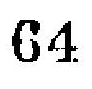64
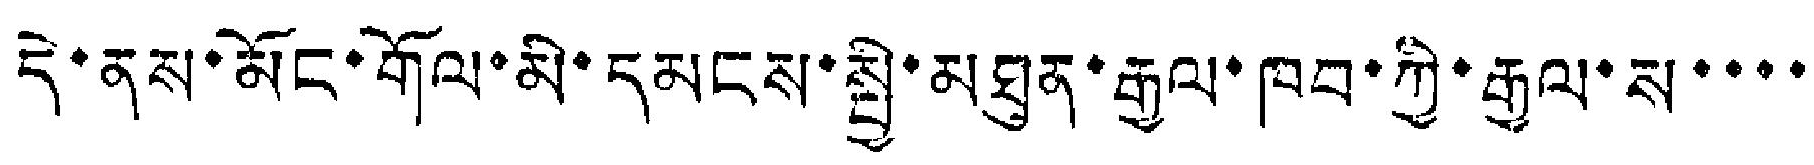དེ་ནས་མོང་གོལ་མི་དམངས་སྤྱི་མཐུན་རྒྱལ་ཁབ་ཀྱི་རྒྱལ་ས་་་་
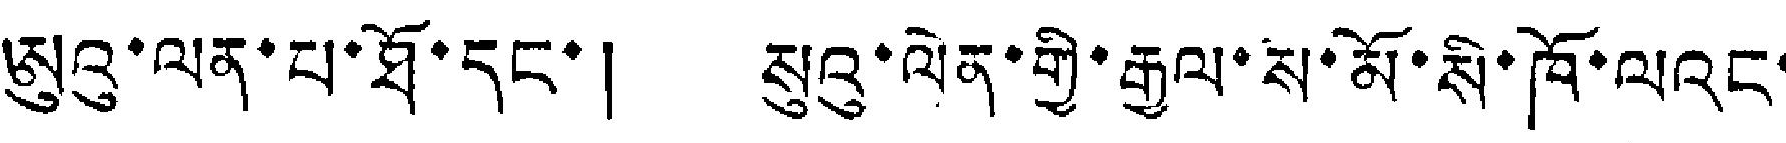ཨུའུ་ལན་པ་ཐོ་དང་། སུའུ་ལེན་གྱི་རྒྱལ་ས་མོ་སི་ཁོ་ལའང་
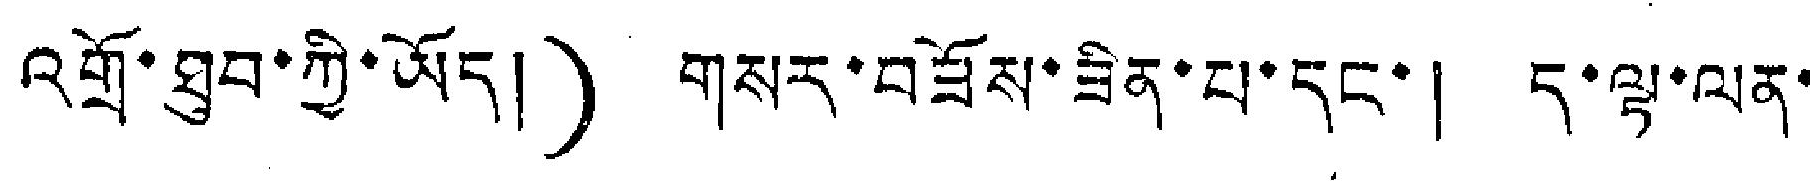འགྲོ་ཐུབ་ཀྱི་ཡོད།) གསར་བཟོས་ཟིན་པ་དང་། ད་ལྟ་ལན་
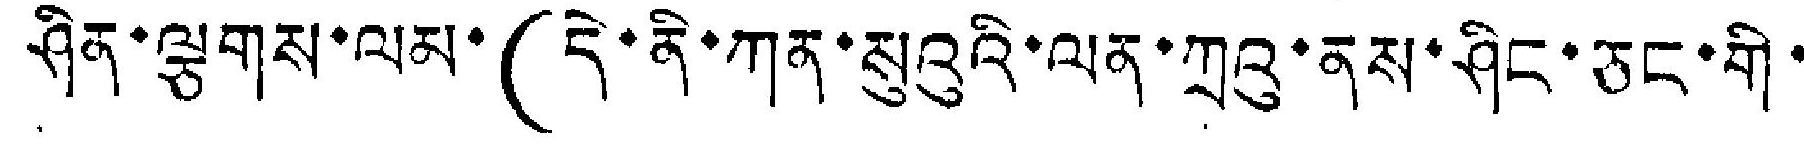ཤིན་ལྕགས་ལམ་(དེ་ནི་ཀན་སུའུའི་ལན་ཀྲའུ་ནས་ཤིང་ཅང་གི་
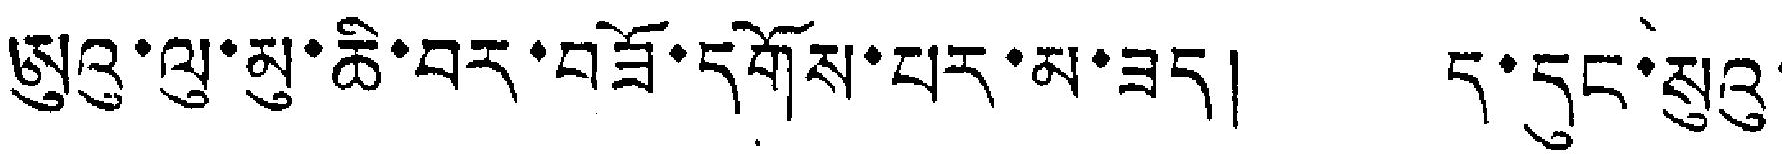ཨུའུ་ལུ་མུ་ཆི་བར་བཟོ་དགོས་པར་མ་ཟད། ད་དུང་སུའུ་
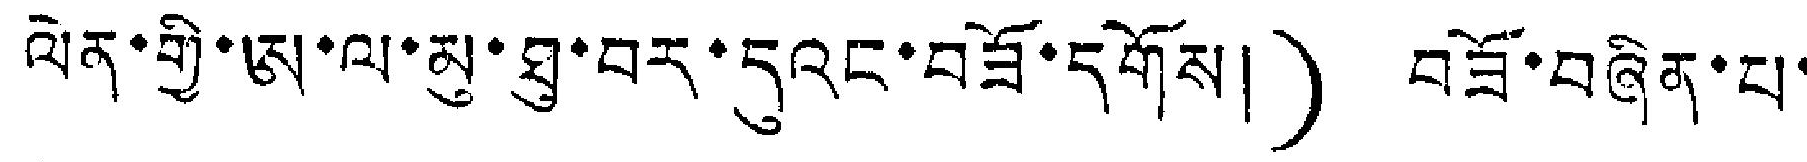ལེན་གྱི་ཨ་ལ་མུ་ཐུ་བར་དུའང་བཟོ་དགོས།) བཟོ་བཞིན་པ་
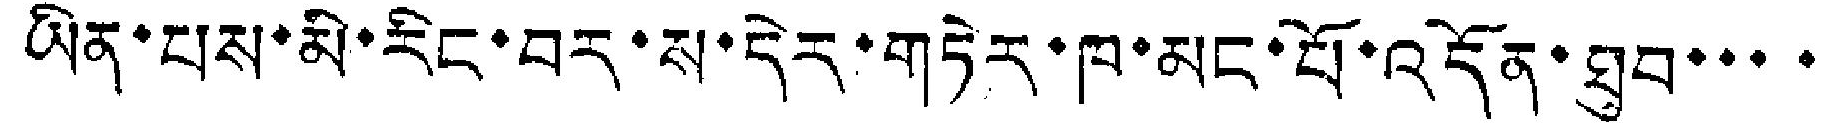ཡིན་པས་མི་རིང་བར་ས་དེར་གཏེར་ཁ་མང་པོ་འདོན་ཐུབ་་་་་
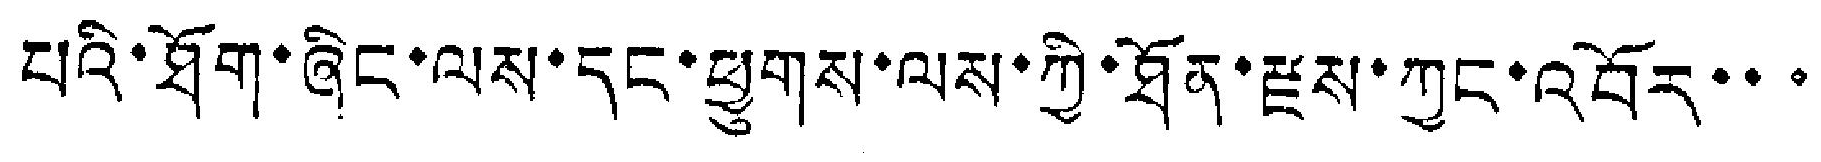པའི་ཐོག་ཞིང་ལས་དང་ཕྱུགས་ལས་ཀྱི་ཐོན་རྫས་ཀྱང་འབོར་་་་
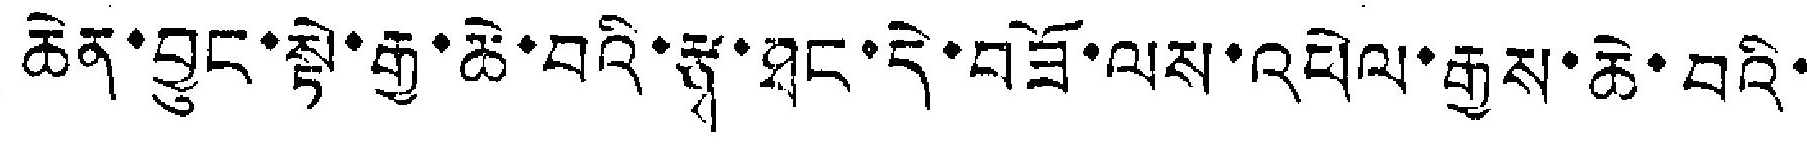ཆེན་བྱུང་སྟེ་རྒྱ་ཆེ་བའི་རྩྭ་ཐང་དེ་བཟོ་ལས་འཕེལ་རྒྱས་ཆེ་བའི་
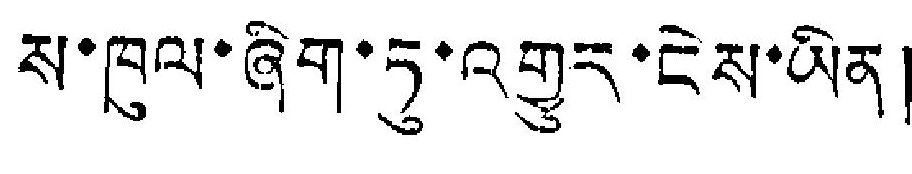ས་ཁུལ་ཞིག་ཏུ་འགྱུར་ངེས་ཡིན།
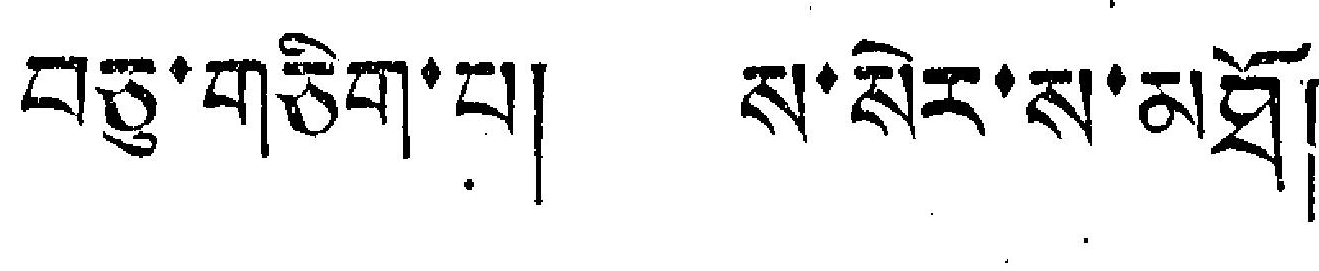བཅུ་གཅིག་པ། ས་སེར་ས་མཐོ།
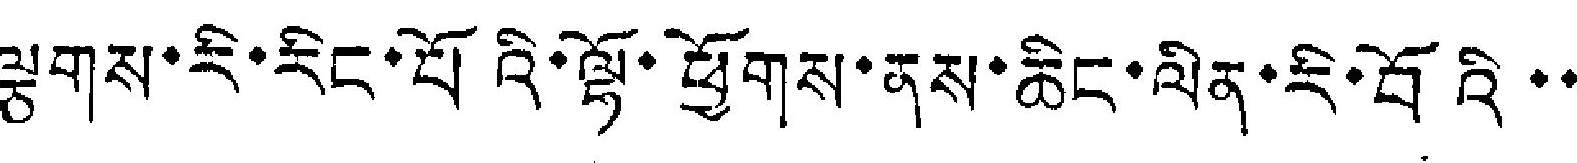ལྕགས་རི་རིང་པོའི་ལྷོ་ཕྱོགས་ནས་ཆིང་ལིན་རི་བོའི་་
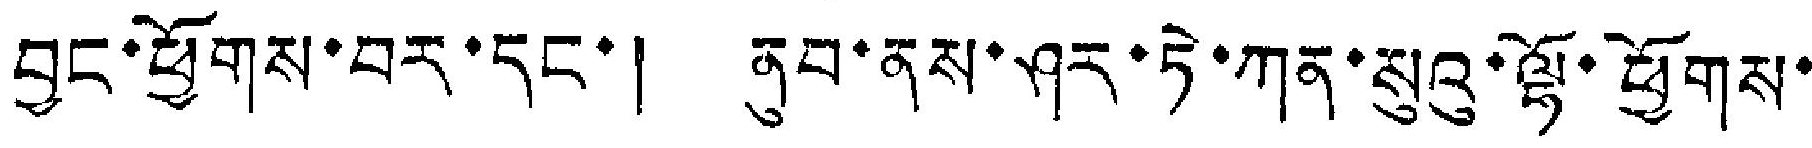བྱང་ཕྱོགས་བར་དང་། ནུབ་ནས་ཤར་ཏེ་ཀན་སུའུ་ལྷོ་ཕྱོགས་
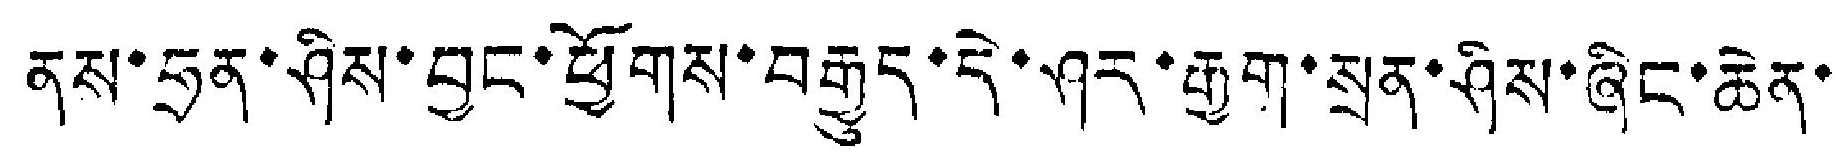ནས་ཧྲན་ཤིས་བྱང་ཕྱོགས་བརྒྱུད་དེ་ཤར་རྒྱག་སྲན་ཤིས་ཞིང་ཆེན་
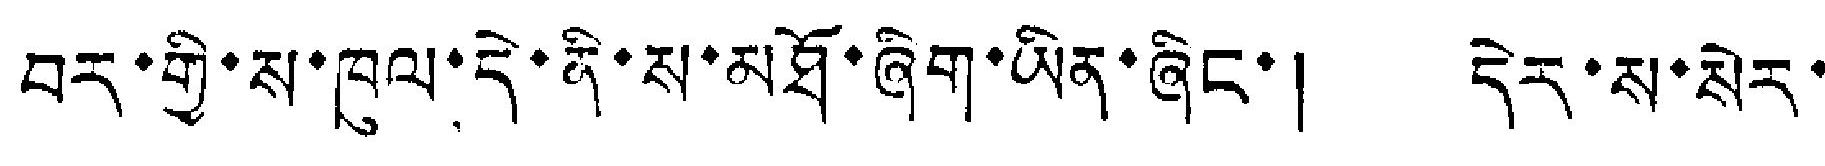བར་གྱི་ས་ཁུལ་དེ་ནི་ས་མཐོ་ཞིག་ཡིན་ཞིང་། དེར་ས་སེར་
